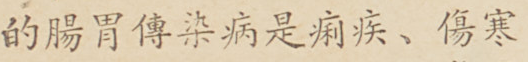的腸胃傳染病是痢疾、傷寒
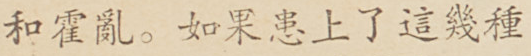和霍亂。如果患上了這幾種
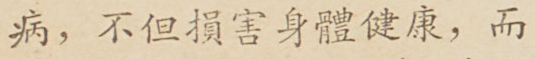病，不但損害身體健康，而
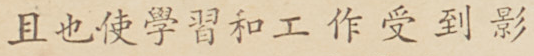且也使學習和工作受到影
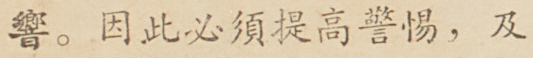響。因此必須提高警惕，及
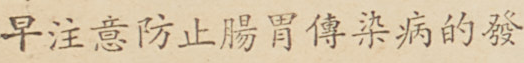早注意防止腸胃傳染病的發
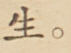生。
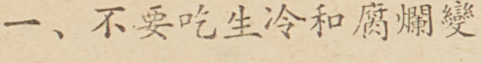一、不要吃生冷和腐爛變
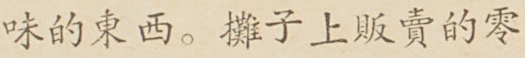味的東西。攤子上販賣的零
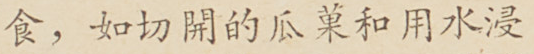食，如切開的瓜菓和用水浸
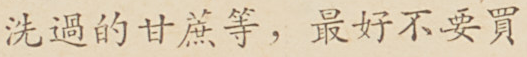洗過的甘蔗等，最好不要買
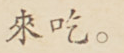來吃。
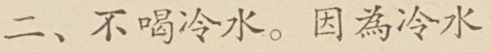二、不喝冷水。因為冷水
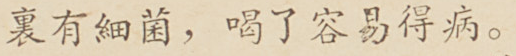裏有細菌，喝了容易得病。
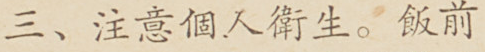三、注意個人衛生。飯前
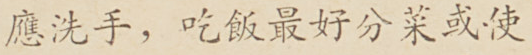應洗手，吃飯最好分菜或使
